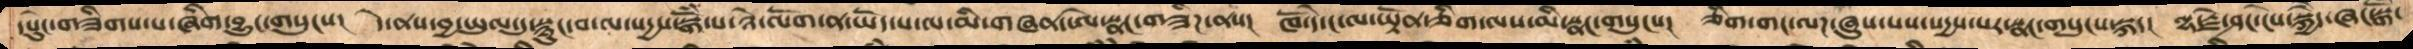དཔེུངགཟིགས་པ་ཞིག་བྱུང་གསུངས།   དེ་ནས་བྱ་ཡུལ་དུ་སྙུང་བ་ལ་སདྱས་སྒོཾ་པ་ཉེ་ལོག་ན་ཡོད་པ་ལ་མི་གཞན་ཨེ་སྣང་གཟིཌ་ནས།  ཁོ་དེ་ང་ལ་ཡྟོན་ཅིག་ལས་མི་སྣང་གསུངས།  ཅིག་གང་ལཌ་ཞུས་པས་སདྱས་པར་སྣང་གསུངས་སྐད།  ལྷ་རྗེ་ཤང་ངེས་སྐྱཻད་ཞང་སྒོ་
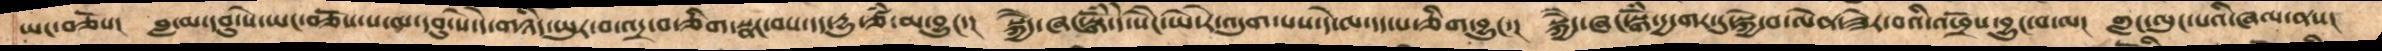ཡང་བཅོས།  བླ་མ་དབུ་སེ་ཡང་བཅོས་པ་ལ་དབུ་སེ་དེ་གཉིད་ཡུར་བ་འདྲ་བ་ཅིག་སྣང་བས་དད་དྱུ་ཙཾ་མ་བྱུང་།  སྐྱཻད་ཞང་སྒོཾ་དེ་སཻང་ཡེ་རེ་འདུག་པས་དེ་ལ་དད་པ་ཅིག་བྱུང་།  སྐྱཻད་ཞང་སྒོཾ་དྱ་གར་དུ་སྐྱེ་བ་ལེན་ཟེར་བའི་འཕྲོས་བྱུང་བ་ལ།  གླང་ལུང་པའི་ཞལ་ནས།
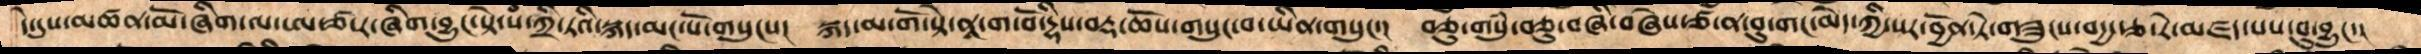དེ་དུས་མཚན་མོ་ཞིག་ལ་ཨ་ཙ་ར་ཞིག་བྱུང་སྟེ་སཾ་སྐྲི་ཏའི་སྐད་མང་པོ་གསུངས།  སྐད་མ་གོ་སྟེ་ནཱ་ག་བོ་དྷིས་བརྡ་ཆོས་གསུང་བ་ཡིན་གསུང་།  བཅུ་གསུཾ་བཅུ་བཞི་བཞེས་ཙ་ན་བུ་གང་མེད་ཀྱི་སར་བྱོན་ཏེ་གཟུངས་བདྱ་རྩ་རེ་མཛད་པས་བུ་བྱུང་།
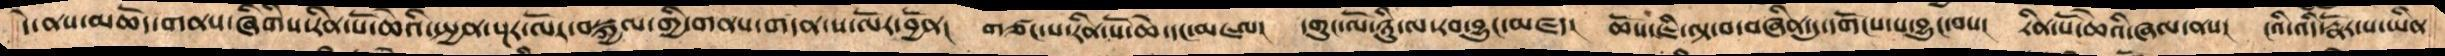དེ་ནས་མཆོད་གནས་ཞིགིས་རིན་པོ་ཆེའི་སྤྱན་སྔར་ལོར་བསྐྱལ་གྱི་གནས་གདན་ས་ལོར་བྱོན།   གཙང་པ་རིན་པོ་ཆེ་དང་མཇལ།  དགུང་ལོ་ཉིུ་ལ་རབ་བྱུང་མཛད།   ཆོས་ཇི་ལྟ་བ་བཞིན་དུ་དགོངས་པ་བྱུང་བས།  རིན་པོ་ཆེའི་ཞལ་ནས།  ངའི་འདི་རྣོར་པ་ཡིན
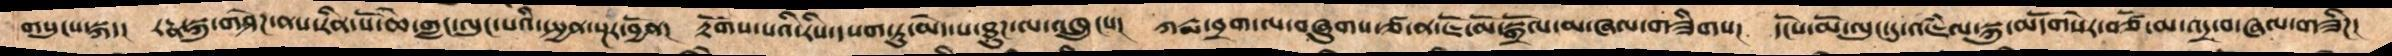གསུངས་སྐད།  རཏྣ་སྐུ་གཤེཌ་ནས་རིན་པོ་ཆེ་གླང་ལུང་པའི་སྤྱན་སྔར་བྱོན།  རྟོགས་པའི་རིས་དཔག་ཏུ་མེད་པ་ཐུཌ་ལ་འཁྲུངས།  ཀརྨ་བྲག་ལ་བཞུགས་ཙ་ན་ཇོ་མོ་སྒྲོལ་མ་ཞལ་གཟིགས།  དངོས་མོ་ལུང་དུ་འཇཾལ་སྐུ་མདོགསེར་བཙོ་མ་འདྲ་བ་ཞལ་གཟིཌ།
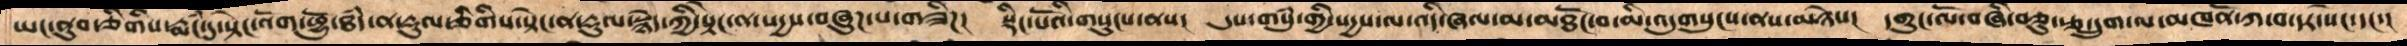ཡང་ནུབ་གཅིགིས་རྨངཾ་དུ་སྟེང་འོག་ཕྱོུ་ཐཾད་ན་རྡུལ་ཅིགིས་སྟེང་ན་རྡུལ་སྙེད་ཀྱི་སྟེང་ན་སདྱས་བཞུཌ་པ་གཟིཌ།  སྡིང་པོའི་གསུངས་ནས།  དུས་གསུམ་གྱི་སདྱས་ལ་འདི་ཞལ་མ་མཐོང་བ་མི་འདུགསུངས་ནས་མཉེས།  དགུང་ལོ་བཞི་བཅུ་རྩ་དྲུག་ལ་མཁནོ་ཀ་བ་དར་སེང་དང་།
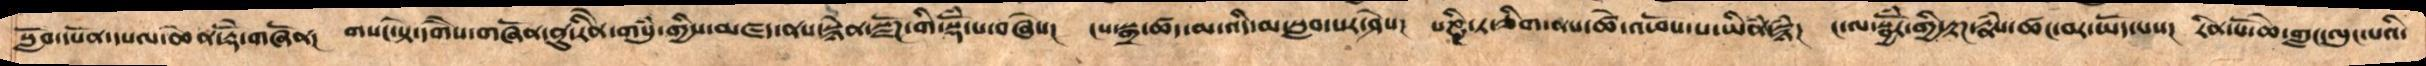སློབ་དཔོན་དཔལ་ཆེན་རྡོ་ེགཞོན། གསང་སྟེ་དགཻས་གཞོན་ནུ་རིནེ་གསུཾ་གྱིས་མཛད་ནས་སྙེན་སྫོཌ་གི་སྡོཾ་པ་བཞེས།  ངས་སྒྲ་ཚད་མ་འདི་མ་སླབ་པར་ཤེས།  པཎྜི་ཏ་ཅིག་ནས་ཚེ་འཕོས་པ་ཡིནཾ་སྙཾ།  ང་ལ་སྦྱོཾར་གྱི་རྟཌ་རྣཾས་ཚང་བར་ཡོད་པས།  རིན་པོ་ཆེ་གླང་ལུང་པའི་
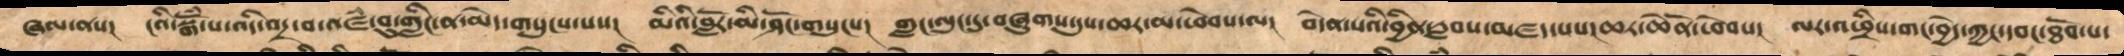ཞལ་ནས།   ངའི་སྒོཾ་པ་འདི་འདྲ་བ་འཛཾ་བུ་གླིང་ན་མེད་གསུངས་པས།   མིའི་བློར་མི་ཤོང་གསུངས།   གླང་ལུང་དུ་བཞུགས་དུས་ཆར་མ་ཕེབས་ལ། བདེན་པའི་བྱིན་རླབས་མཛད་པས་ཆར་ཆེནོ་ཕེབས། ལར་འཕྲིས་གང་བྱེད་ཀྱང་དབང་ཐོབ་པ་
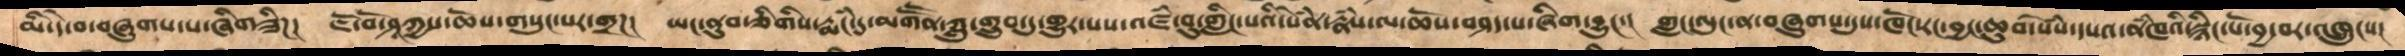མི་དེ་བ་བཞུགས་པ་ཞིགཟིཌ།  ཇོ་བོ་ཤཱཀྱས་ཆོས་གསུང་པར་གྲཌ།   ཡང་ནུབ་ཅིགིས་རྨངཾ་དུ་མགཽན་ཀླུ་གྲུབ་དུ་གྱུར་པས་འཛཾ་བུ་གླིང་པའི་སེནཾ་རྣཾས་ལ་ཆོས་བཤད་པ་ཞིག་བྱུང་།   གླང་ལུང་ན་བཞུགས་དུས་ཁོང་རང་བྱང་ཆུབ་སེསཾ་དཔའ་ནཾཁའི་སྙིང་པོ་བྱ་བར་འཁྲུངས།
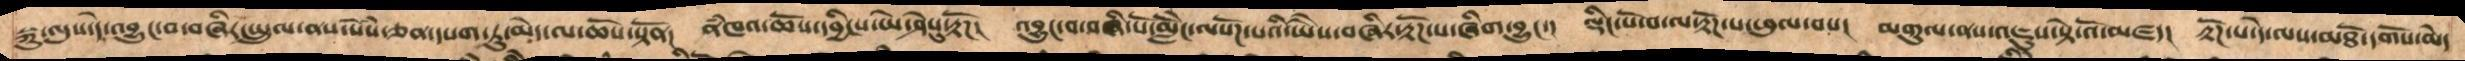སྐུ་ལུས་དེ་འབྱུང་བ་བཞིར་སྤྲུལ་ནས་སེསཾ་ཅན་དཔག་ཏུ་མེད་ལ་ཆོས་སྟོན།  ནཾཁའ་ཆོས་དབྱིངས་ཡེ་ཤེསུ་རྟོཌ།  འབྱུང་བ་བཞི་པོ་མླེོང་ལསོཌ་པའི་ཡཻས་བཞིར་རྟོཌ་པ་ཞིག་བྱུང་།  ལྡིང་པོ་བ་ལ་རྟོཌ་པཕུལ་བས།  མགུལ་ནས་འཇུས་ཏེ་འོ་མཛད།  རྟོཌ་པ་དེ་ལས་མཐོ་དགོས་མེད
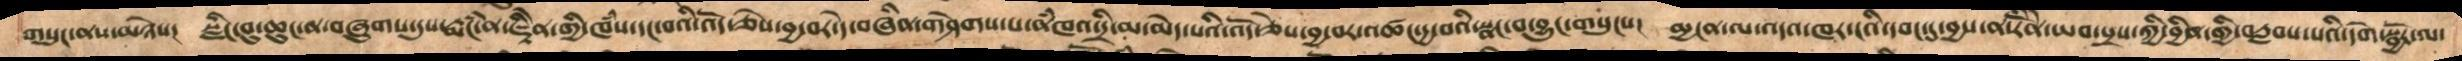གསུང་ནས་མཉེས།  སྫིང་བུ་ཆུང་ན་བཞུགས་དུས་རྨངཾ་ན་འཇྟིེན་གྱི་ཁཾས་དང་བའི་འོད་ཅེས་བྱ་བར་དེ་བཞིན་བཤེགས་པ་ནཾཁའ་དྲི་མ་མེད་པའི་འོད་ཅེས་བྱ་བར་འཚང་དྱ་བའི་སྣང་བ་བྱུང་གསུངས།  མྱངན་ལས་འདའ་ཁར་ངའི་དབང་དུ་བྱས་ན་རིནོི་ཡབ་སྲས་ཀྱི་བྱིན་གྱི་་བརླབས་པའི་དགེ་སྦྱོར་ལ་
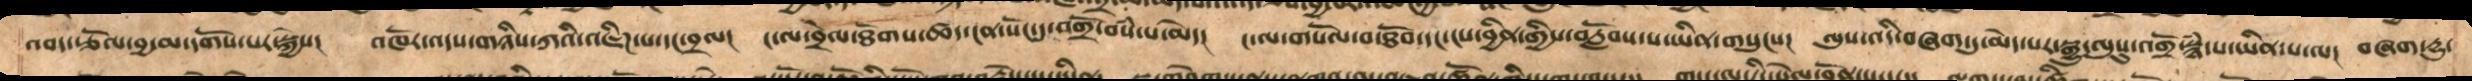འབད་རྩོལ་བྱ་མ་དགོས་པར་སྐྱེས།  འཁོར་འདས་གཉིས་ཀའི་འཇིཌ་པ་དང་བྲལ།  ང་ལ་འབྲེལ་ཐོགས་ཚད་ངན་སོང་དུ་འགྲོ་བསཾ་པ་མེད།  ང་ལ་གསོལ་བ་ཐོབ་དང་ངས་བྱིན་གྱིས་བརློབས་པ་ཡིན་གསུངས།  ལུས་འདི་བཞག་དུ་མེད་པར་སྒྱུ་ལུསུ་འགྲོ་སྙཾ་པ་ཡིན་པ་ལ།  བཞག་དྱུ་
